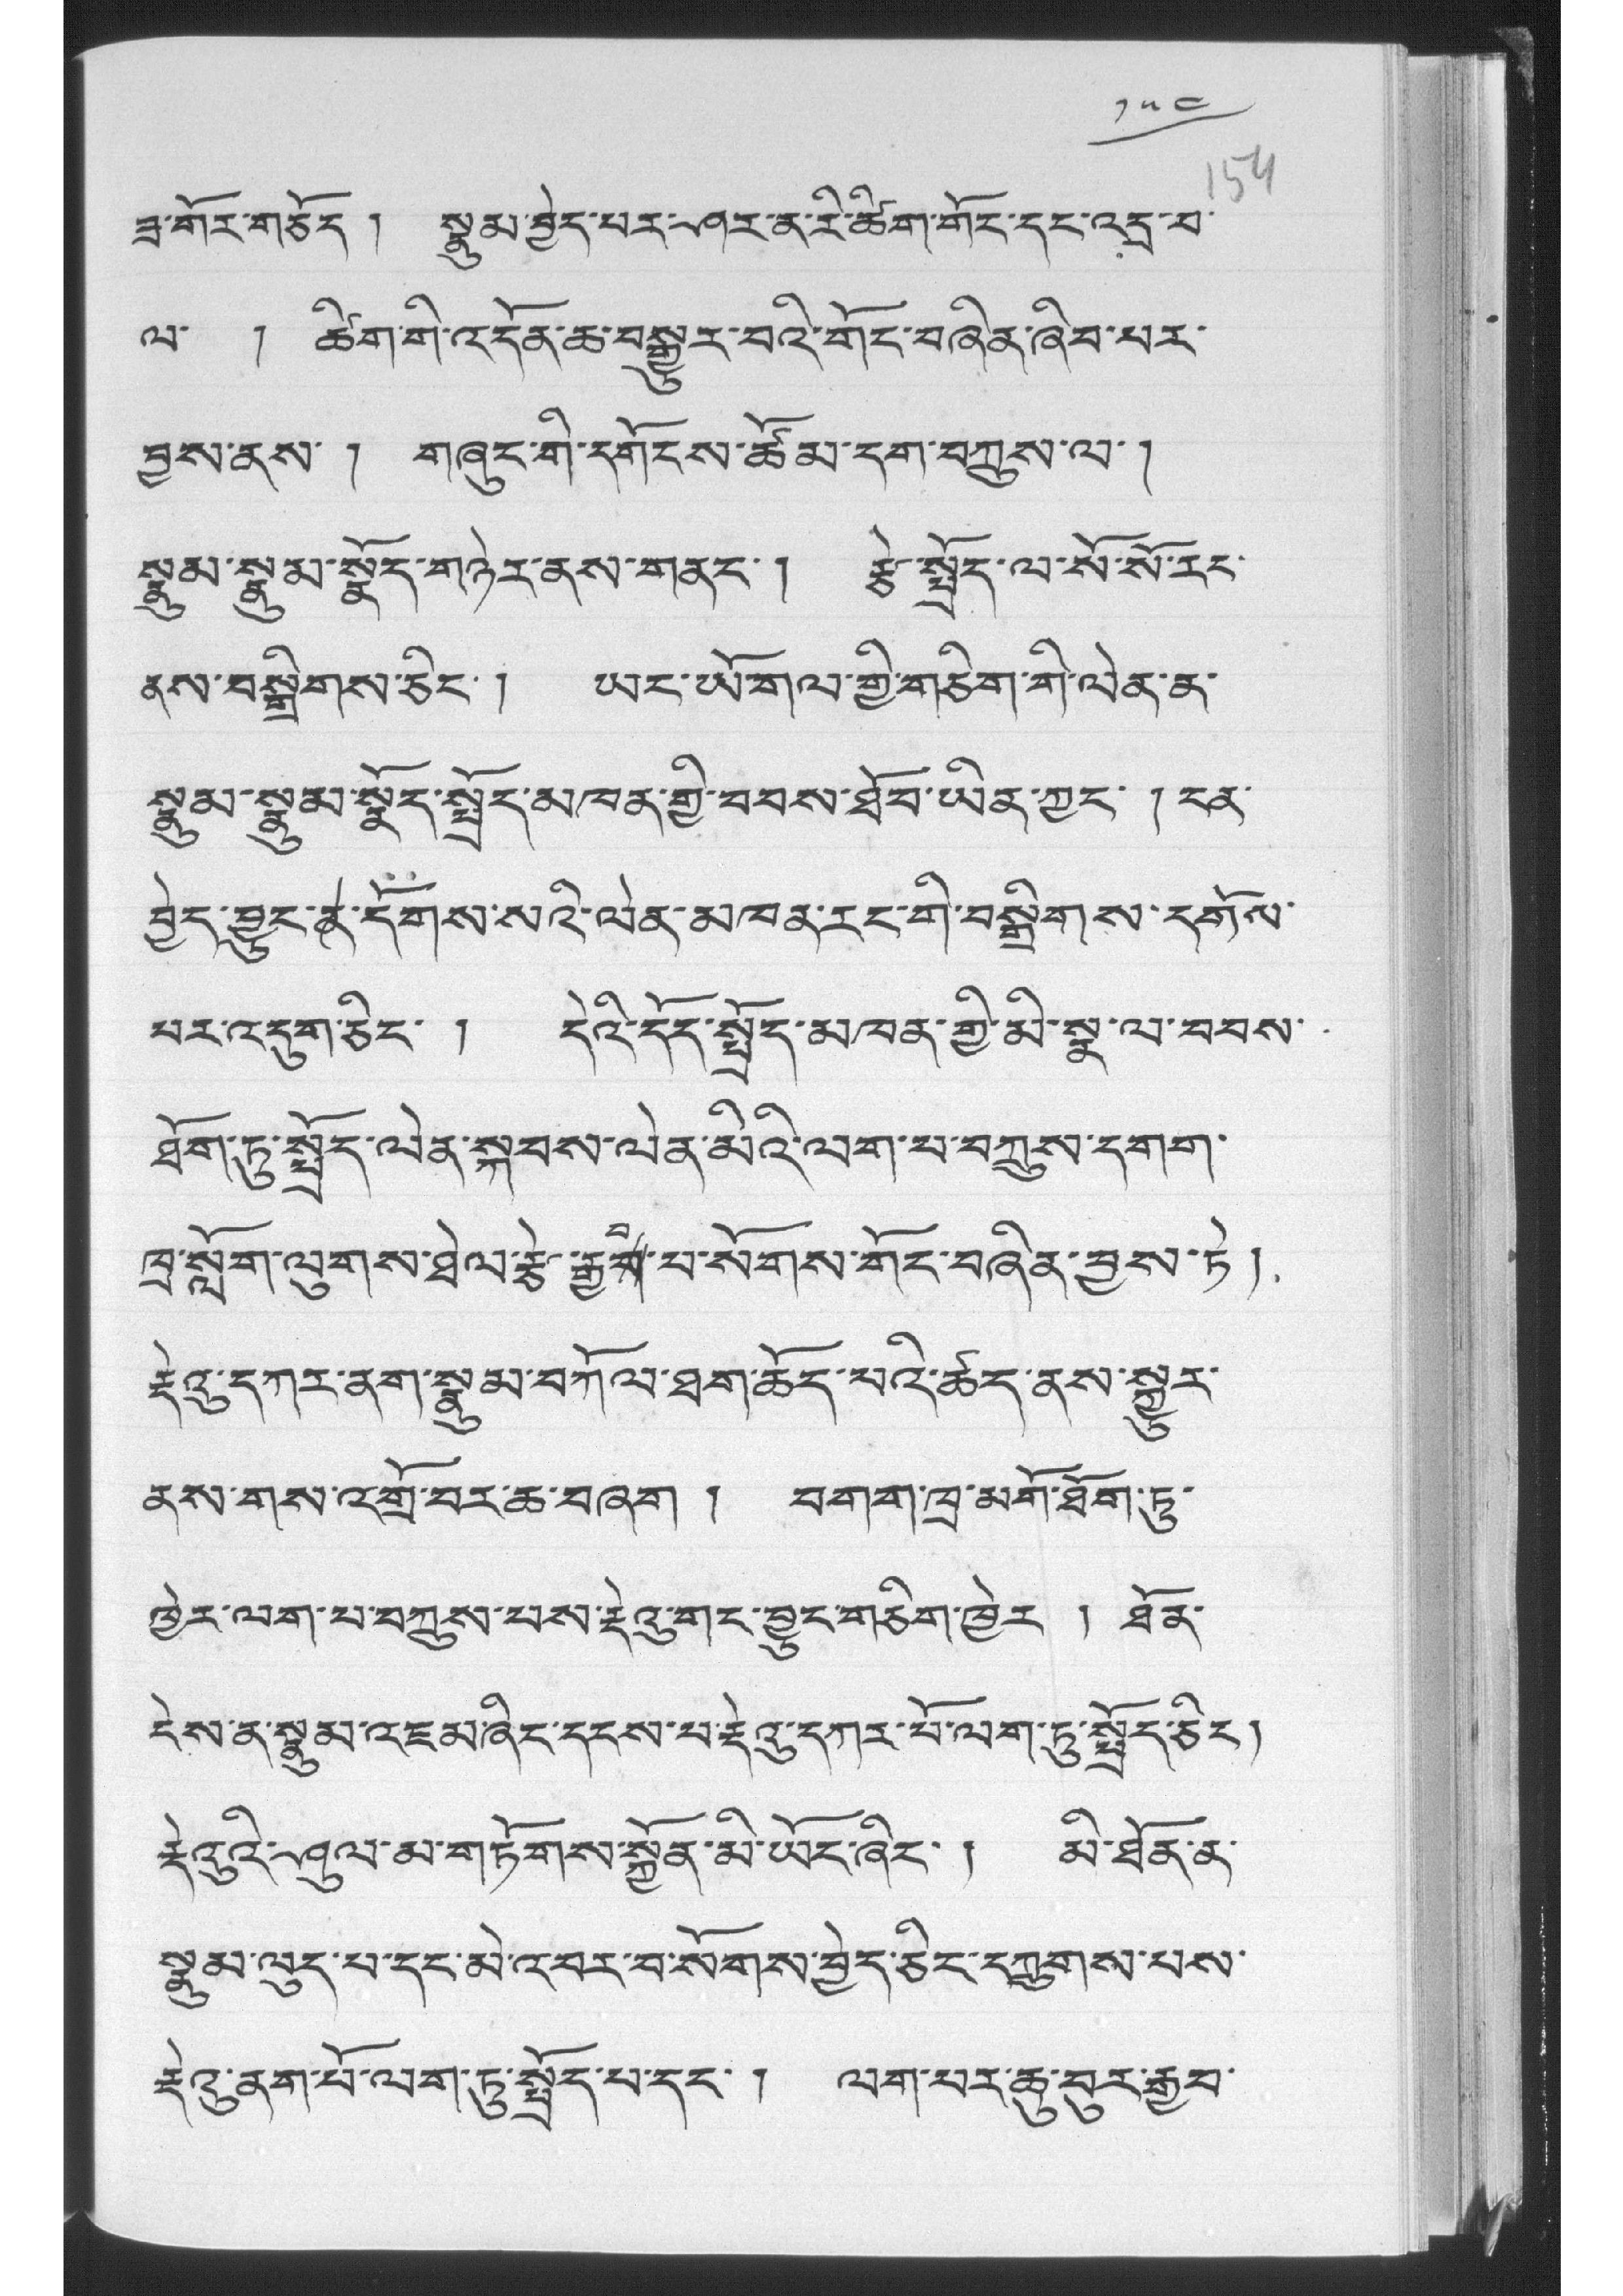༡༥༤
ཟ་གོར་གཅོད ། སྣུམ་བྱེད་པར་ཤར་ན་རི་ཚིག་གོང་དང་འདྲ་བ་
ལ་ ། ཚིག་གི་འདོན་ཆ་བསྒྱུར་བའི་གོང་བཞིན་ཞིབ་པར་
བྱས་ནས་ ། གཞུང་གི་དགོངས་ཚོམ་དག་བཀྲུས་ལ་།
སྣུམ་སྣུམ་སྣོད་གཉེར་ནས་གནང་། རྩེ་སྤྲོད་ལ་སོ་སོ་རང་
ནས་བསྒྲིགས་ཅིང་ ། ཡང་ཡོ་གལ་གྱི་གཅིག་གི་ལེན་ན་
སྣུམ་སྣུམ་སྣོད་སྤྲོད་མཁན་གྱི་ཐབས་ཐོབ་ཡིན་ཀྱང་ ། ངན་
བྱེད་བྱུང་ན་དོགས་པའི་ལེན་མཁན་རང་གི་བསྒྲིགས་དགོས་
པར་འདུག་ཅིང་ ། དེའི་དོད་སྤྲོད་མཁན་གྱི་མི་སྣ་ལ་བབས་
ཐོག་ཏུ་སྤྲོད་ལེན་སྐབས་ལེན་མིའི་ལག་པ་བཀྲུས་དགག་
ཁྲ་སློག་ལུགས་ཐེལ་རྩེ་རྒྱགབ་པ་སོགས་གོང་བཞིན་བྱས་ཏེ །
རྡེའུ་དཀར་ནག་སྣུམ་བཀོལ་ཐག་ཆོད་པའི་ཚད་ནས་སྐྱུར་
ནས་གས་འགྲོ་བར་ཆ་བཞག ། བགག་ཁྲི་མགོ་ཐོག་ཏུ་
ཁྱེར་ལག་པ་བཀྲུས་པས་རྡེའུ་གང་བྱུང་གཅིག་ཁྱེར ། ཐོན་
ངེས་ན་སྣུམ་འཇམ་ཞིང་དངས་པ་རྡེའུ་དཀར་པོ་ལག་ཏུ་སྤྲོད་ཅིང །
རྡེའུའི་ཤུལ་མ་གཏོགས་སྐྱོན་མི་ཡོང་ཞིང་ ། མི་ཐོན་ན་
སྣུམ་ལུད་པ་དང་མེ་འབར་བ་སོགས་བྱེད་ཅིང་དཀྲུགས་པས་
རྡེའུ་ནག་པོ་ལག་ཏུ་སྤྲོད་པ་དང་། ལག་པར་ཆུ་བུར་རྒྱབ་
